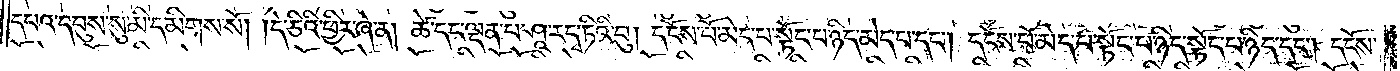དཔའ་དབུས་སུ་མི་དམིགས་སོ། །དེ་ཅིའི་ཕྱིར་ཞེ་ན། ཚེ་དང་ལྡན་པ་ཤཱ་རདྭ་ཏིའི་བུ། དངོས་པོ་མེད་པ་སྟོང་པ་ཉིད་མེད་པ་དང༌། དངོས་པོ་མེད་པ་སྟོང་པ་ཉིད་སྟོང་པ་ཉིད་དང༌། དངོས་
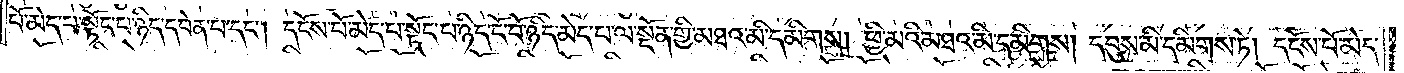པོ་མེད་པ་སྟོང་པ་ཉིད་དབེན་པ་དང༌། དངོས་པོ་མེད་པ་སྟོང་པ་ཉིད་ངོ་བོ་ཉིད་མེད་པ་ལ་སྔོན་གྱི་མཐའ་མི་དམིགས། ཕྱི་མའི་མཐའ་མི་དམིགས། དབུས་མི་དམིགས་ཏེ། དངོས་པོ་མེད་
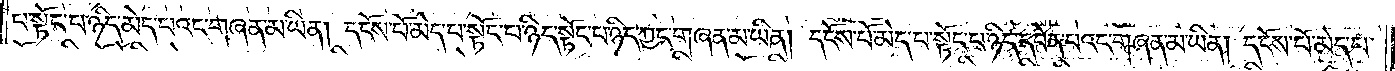པ་སྟོང་པ་ཉིད་མེད་པའང་གཞན་མ་ཡིན། དངོས་པོ་མེད་པ་སྟོང་པ་ཉིད་སྟོང་པ་ཉིད་ཀྱང་གཞན་མ་ཡིན། དངོས་པོ་མེད་པ་སྟོང་པ་ཉིད་དབེན་པའང་གཞན་མ་ཡིན། དངོས་པོ་མེད་པ་
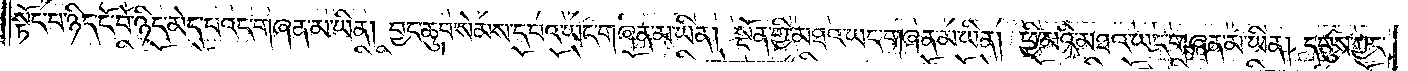སྟོང་པ་ཉིད་ངོ་བོ་ཉིད་མེད་པའང་གཞན་མ་ཡིན། བྱང་ཆུབ་སེམས་དཔའ་ཡང་གཞན་མ་ཡིན། སྔོན་གྱི་མཐའ་ཡང་གཞན་མ་ཡིན། ཕྱི་མའི་མཐའ་ཡང་གཞན་མ་ཡིན། དབུས་ཀྱང་
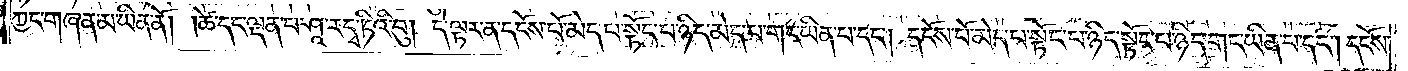ཀྱང་གཞན་མ་ཡིན་ནོ། །ཚེ་དང་ལྡན་པ་ཤཱ་རདྭ་ཏིའི་བུ། དེ་ལྟར་ན་དངོས་པོ་མེད་པ་སྟོང་པ་ཉིད་མེད་པ་གང་ཡིན་པ་དང༌། དངོས་པོ་མེད་པ་སྟོང་པ་ཉིད་སྟོང་པ་ཉིད་གང་ཡིན་པ་དང༌། དངོས་
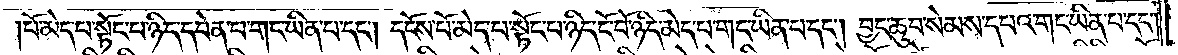པོ་མེད་པ་སྟོང་པ་ཉིད་དབེན་པ་གང་ཡིན་པ་དང༌། དངོས་པོ་མེད་པ་སྟོང་པ་ཉིད་ངོ་བོ་ཉིད་མེད་པ་གང་ཡིན་པ་དང༌། བྱང་ཆུབ་སེམས་དཔའ་གང་ཡིན་པ་དང༌།
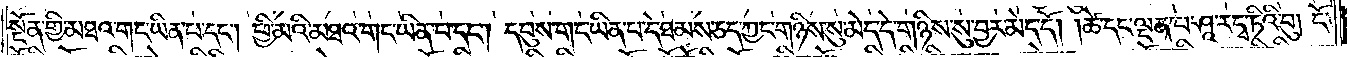སྔོན་གྱི་མཐའ་གང་ཡིན་པ་དང༌། ཕྱི་མའི་མཐའ་གང་ཡིན་པ་དང༌། དབུས་གང་ཡིན་པ་དེ་ཐམས་ཅད་ཀྱང་གཉིས་སུ་མེད་དེ་གཉིས་སུ་བྱར་མེད་དོ། །ཚེ་དང་ལྡན་པ་ཤཱ་རདྭ་ཏིའི་བུ། ངོ་
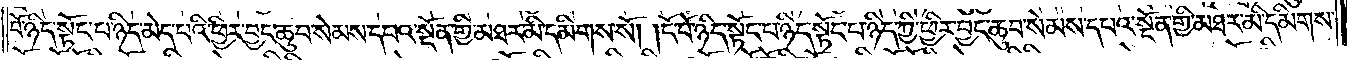བོ་ཉིད་སྟོང་པ་ཉིད་མེད་པའི་ཕྱིར་བྱང་ཆུབ་སེམས་དཔའ་སྔོན་གྱི་མཐར་མི་དམིགས་སོ། །ངོ་བོ་ཉིད་སྟོང་པ་ཉིད་སྟོང་པ་ཉིད་ཀྱི་ཕྱིར་བྱང་ཆུབ་སེམས་དཔའ་སྔོན་གྱི་མཐར་མི་དམིགས་
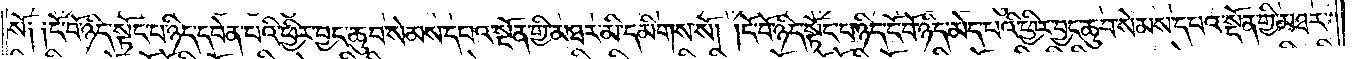སོ༑ ༑ངོ་བོ་ཉིད་སྟོང་པ་ཉིད་དབེན་པའི་ཕྱིར་བྱང་ཆུབ་སེམས་དཔའ་སྔོན་གྱི་མཐར་མི་དམིགས་སོ། །ངོ་བོ་ཉིད་སྟོང་པ་ཉིད་ངོ་བོ་ཉིད་མེད་པའི་ཕྱིར་བྱང་ཆུབ་སེམས་དཔའ་སྔོན་གྱི་མཐར་
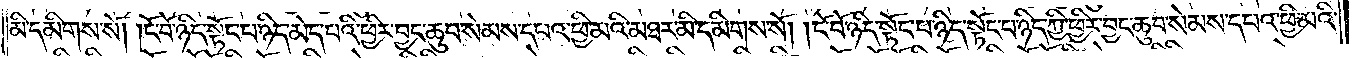མི་དམིགས་སོ། །ངོ་བོ་ཉིད་སྟོང་པ་ཉིད་མེད་པའི་ཕྱིར་བྱང་ཆུབ་སེམས་དཔའ་ཕྱི་མའི་མཐར་མི་དམིགས་སོ། །ངོ་བོ་ཉིད་སྟོང་པ་ཉིད་སྟོང་པ་ཉིད་ཀྱི་ཕྱིར་བྱང་ཆུབ་སེམས་དཔའ་ཕྱི་མའི་
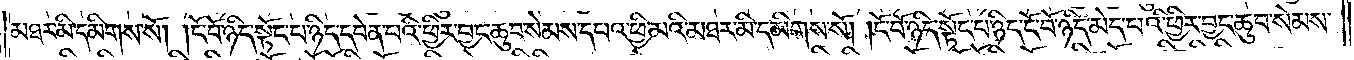མཐར་མི་དམིགས་སོ། །ངོ་བོ་ཉིད་སྟོང་པ་ཉིད་དབེན་པའི་ཕྱིར་བྱང་ཆུབ་སེམས་དཔའ་ཕྱི་མའི་མཐར་མི་དམིགས་སོ། །ངོ་བོ་ཉིད་སྟོང་པ་ཉིད་ངོ་བོ་ཉིད་མེད་པའི་ཕྱིར་བྱང་ཆུབ་སེམས་
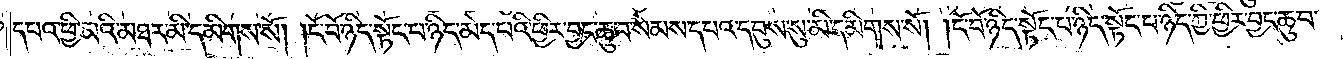དཔའ་ཕྱི་མའི་མཐར་མི་དམིགས་སོ། །ངོ་བོ་ཉིད་སྟོང་པ་ཉིད་མེད་པའི་ཕྱིར་བྱང་ཆུབ་སེམས་དཔའ་དབུས་སུ་མི་དམིགས་སོ། །ངོ་བོ་ཉིད་སྟོང་པ་ཉིད་སྟོང་པ་ཉིད་ཀྱི་ཕྱིར་བྱང་ཆུབ་
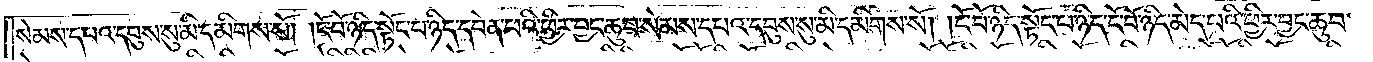སེམས་དཔའ་དབུས་སུ་མི་དམིགས་སོ། །ངོ་བོ་ཉིད་སྟོང་པ་ཉིད་དབེན་པའི་ཕྱིར་བྱང་ཆུབ་སེམས་དཔའ་དབུས་སུ་མི་དམིགས་སོ། །ངོ་བོ་ཉིད་སྟོང་པ་ཉིད་ངོ་བོ་ཉིད་མེད་པའི་ཕྱིར་བྱང་ཆུབ་
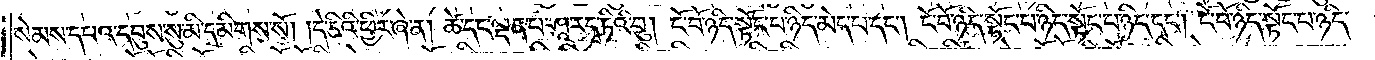སེམས་དཔའ་དབུས་སུ་མི་དམིགས་སོ། །དེ་ཅིའི་ཕྱིར་ཞེ་ན། ཚེ་དང་ལྡན་པ་ཤཱ་རདྭ་ཏིའི་བུ། ངོ་བོ་ཉིད་སྟོང་པ་ཉིད་མེད་པ་དང༌། ངོ་བོ་ཉིད་སྟོང་པ་ཉིད་སྟོང་པ་ཉིད་དང༌། ངོ་བོ་ཉིད་སྟོང་པ་ཉིད་
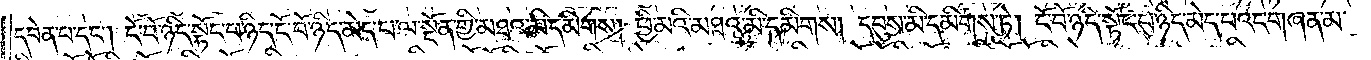དབེན་པ་དང༌། ངོ་བོ་ཉིད་སྟོང་པ་ཉིད་ངོ་བོ་ཉིད་མེད་པ་ལ་སྔོན་གྱི་མཐའ་མི་དམིགས། ཕྱི་མའི་མཐའ་མི་དམིགས། དབུས་མི་དམིགས་ཏེ། ངོ་བོ་ཉིད་སྟོང་པ་ཉིད་མེད་པའང་གཞན་མ་
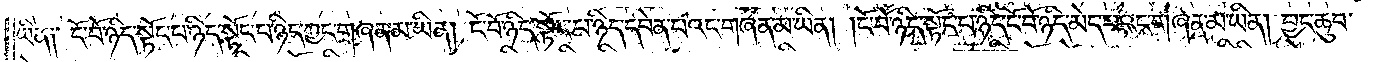ཡིན༑ ངོ་བོ་ཉིད་སྟོང་པ་ཉིད་སྟོང་པ་ཉིད་ཀྱང་གཞན་མ་ཡིན། ངོ་བོ་ཉིད་སྟོང་པ་ཉིད་དབེན་པའང་གཞན་མ་ཡིན། ངོ་བོ་ཉིད་སྟོང་པ་ཉིད་ངོ་བོ་ཉིད་མེད་པའང་གཞན་མ་ཡིན། བྱང་ཆུབ་
